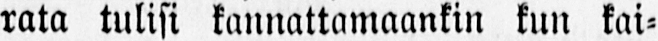rata tulisi kannattamaankin kun kai-
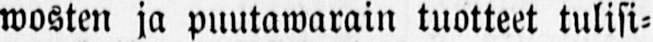wosten ja puutawarain tuotteet tulisi-
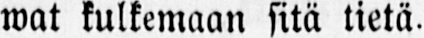wat kulkemaan sitä tietä.
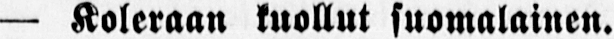— Koleraan kuollut suomalainen.
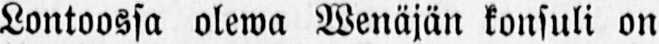Lontoossa olewa Wenäjän konsuli on
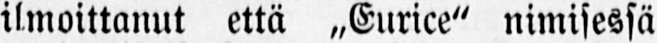ilmoittanut että „Eurice" nimisessä
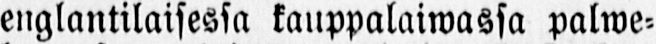englantilaisessa kauppalaiwassa palwe-
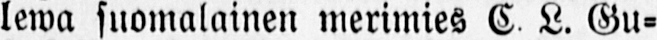lewa suomalainen merimies C. L. Gu-
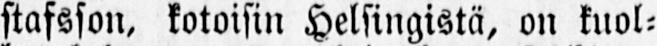stafsson, kotoisin Helsingistä, on kuol-
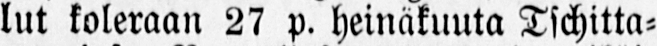lut koleraan 27 p. heinäkuuta Tschitta-
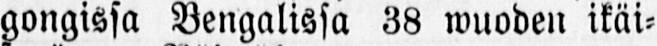gongissa Bengalissa 38 wuoden ikäi-
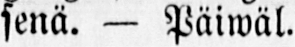senä. — Päiwäl,
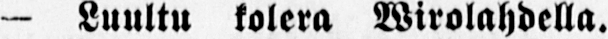— Luultu kolera Wirolahdella.
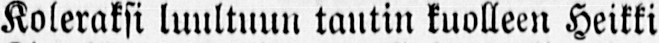Koleraksi luultuun tautin kuolleen Heikki
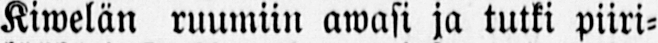Kiwelän ruumiin awasi ja tutki piiri-
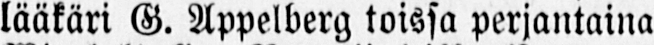lääkäri G. Appelberg toissa perjantaina
